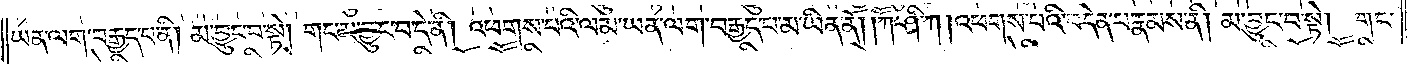ཡན་ལག་བརྒྱད་པ་ནི། མ་བྱུང་བ་སྟེ། གང་མ་བྱུང་བ་དེ་ནི། འཕགས་པའི་ལམ་ཡན་ལག་བརྒྱད་པ་མ་ཡིན་ནོ། །ཀཽ་ཤི་ཀ །འཕགས་པའི་བདེན་པ་རྣམས་ནི། མ་བྱུང་བ་སྟེ། གང་
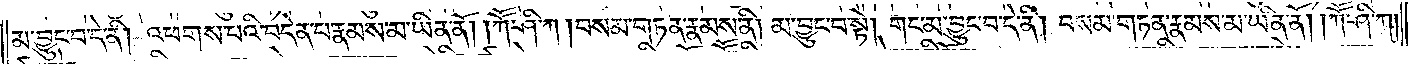མ་བྱུང་བ་དེ་ནི། འཕགས་པའི་བདེན་པ་རྣམས་མ་ཡིན་ནོ། །ཀཽ་ཤི་ཀ །བསམ་གཏན་རྣམས་ནི། མ་བྱུང་བ་སྟེ། གང་མ་བྱུང་བ་དེ་ནི། བསམ་གཏན་རྣམས་མ་ཡིན་ནོ། །ཀཽ་ཤི་ཀ།
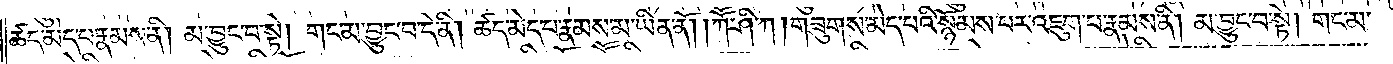ཚད་མེད་པ་རྣམས་ནི། མ་བྱུང་བ་སྟེ། གང་མ་བྱུང་བ་དེ་ནི། ཚད་མེད་པ་རྣམས་མ་ཡིན་ནོ། །ཀཽ་ཤི་ཀ །གཟུགས་མེད་པའི་སྙོམས་པར་འཇུག་པ་རྣམས་ནི། མ་བྱུང་བ་སྟེ། གང་མ་
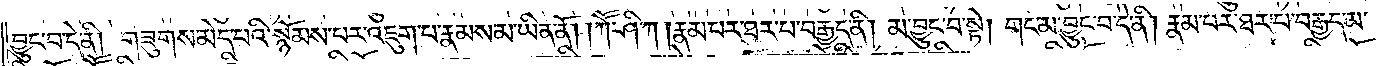བྱུང་བ་དེ་ནི། གཟུགས་མེད་པའི་སྙོམས་པར་འཇུག་པ་རྣམས་མ་ཡིན་ནོ། །ཀཽ་ཤི་ཀ །རྣམ་པར་ཐར་པ་བརྒྱད་ནི། མ་བྱུང་བ་སྟེ། གང་མ་བྱུང་བ་དེ་ནི། རྣམ་པར་ཐར་པ་བརྒྱད་མ་
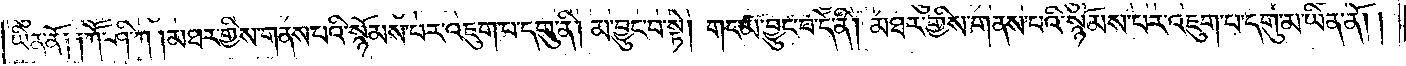ཡིན་ནོ༑ ༑ཀཽ་ཤི་ཀ །མཐར་གྱིས་གནས་པའི་སྙོམས་པར་འཇུག་པ་དགུ་ནི། མ་བྱུང་བ་སྟེ། གང་མ་བྱུང་བ་དེ་ནི། མཐར་གྱིས་གནས་པའི་སྙོམས་པར་འཇུག་པ་དགུ་མ་ཡིན་ནོ༎
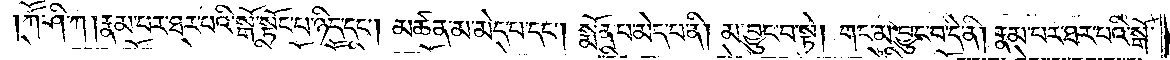ཀཽ་ཤི་ཀ །རྣམ་པར་ཐར་པའི་སྒོ་སྟོང་པ་ཉིད་དང༌། མཚན་མ་མེད་པ་དང༌། སྨོན་པ་མེད་པ་ནི། མ་བྱུང་བ་སྟེ། གང་མ་བྱུང་བ་དེ་ནི། རྣམ་པར་ཐར་པའི་སྒོ་
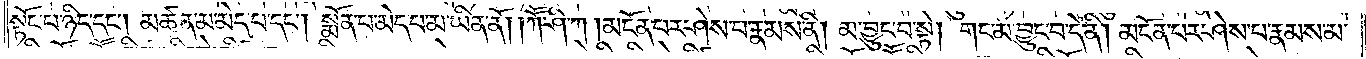སྟོང་པ་ཉིད་དང༌། མཚན་མ་མེད་པ་དང༌། སྨོན་པ་མེད་པ་མ་ཡིན་ནོ། །ཀཽ་ཤི་ཀ །མངོན་པར་ཤེས་པ་རྣམས་ནི། མ་བྱུང་བ་སྟེ། གང་མ་བྱུང་བ་དེ་ནི། མངོན་པར་ཤེས་པ་རྣམས་མ་
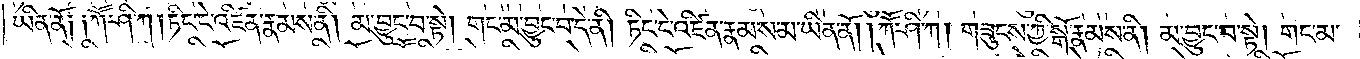ཡིན་ནོ། །ཀཽ་ཤི་ཀ །ཏིང་ངེ་འཛིན་རྣམས་ནི། མ་བྱུང་བ་སྟེ། གང་མ་བྱུང་བ་དེ་ནི། ཏིང་ངེ་འཛིན་རྣམས་མ་ཡིན་ནོ། །ཀཽ་ཤི་ཀ །གཟུངས་ཀྱི་སྒོ་རྣམས་ནི། མ་བྱུང་བ་སྟེ། གང་མ་
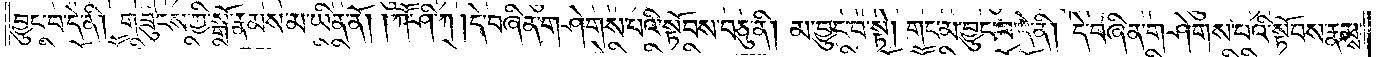བྱུང་བ་དེ་ནི། གཟུངས་ཀྱི་སྒོ་རྣམས་མ་ཡིན་ནོ། །ཀཽ་ཤི་ཀ །དེ་བཞིན་གཤེགས་པའི་སྟོབས་བཅུ་ནི། མ་བྱུང་བ་སྟེ། གང་མ་བྱུང་བ་དེ་ནི། དེ་བཞིན་གཤེགས་པའི་སྟོབས་རྣམས་
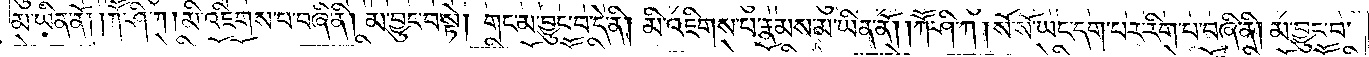མ་ཡིན་ནོ། །ཀཽ་ཤི་ཀ །མི་འཇིགས་པ་བཞི་ནི། མ་བྱུང་བ་སྟེ། །གང་མ་བྱུང་བ་དེ་ནི། མི་འཇིགས་པ་རྣམས་མ་ཡིན་ནོ། །ཀཽ་ཤི་ཀ །སོ་སོ་ཡང་དག་པར་རིག་པ་བཞི་ནི། མ་བྱུང་བ་
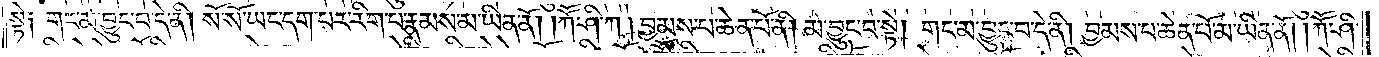སྟེ༑ གང་མ་བྱུང་བ་དེ་ནི། སོ་སོ་ཡང་དག་པར་རིག་པ་རྣམས་མ་ཡིན་ནོ། །ཀཽ་ཤི་ཀ །བྱམས་པ་ཆེན་པོ་ནི། མ་བྱུང་བ་སྟེ། གང་མ་བྱུང་བ་དེ་ནི། བྱམས་པ་ཆེན་པོ་མ་ཡིན་ནོ། །ཀཽ་ཤི་
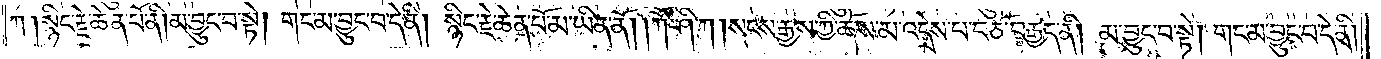ཀ །སྙིང་རྗེ་ཆེན་པོ་ནི། མ་བྱུང་བ་སྟེ། གང་མ་བྱུང་བ་དེ་ནི། སྙིང་རྗེ་ཆེན་པོ་མ་ཡིན་ནོ། །ཀཽ་ཤི་ཀ །སངས་རྒྱས་ཀྱི་ཆོས་མ་འདྲེས་པ་བཅོ་བརྒྱད་ནི། མ་བྱུང་བ་སྟེ། གང་མ་བྱུང་བ་དེ་ནི།
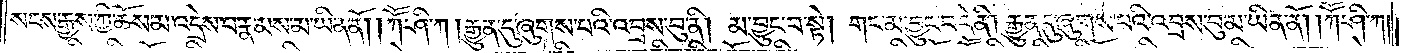སངས་རྒྱས་ཀྱི་ཆོས་མ་འདྲེས་པ་རྣམས་མ་ཡིན་ནོ། །ཀཽ་ཤི་ཀ །རྒྱུན་དུ་ཞུགས་པའི་འབྲས་བུ་ནི། མ་བྱུང་བ་སྟེ། གང་མ་བྱུང་བ་དེ་ནི། རྒྱུན་དུ་ཞུགས་པའི་འབྲས་བུ་མ་ཡིན་ནོ། །ཀཽ་ཤི་ཀ།
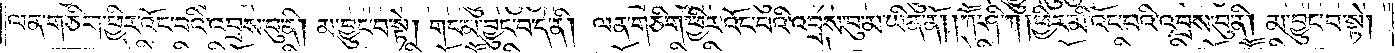ལན་ཅིག་ཕྱིར་འོང་བའི་འབྲས་བུ་ནི། མ་བྱུང་བ་སྟེ། གང་མ་བྱུང་བ་དེ་ནི། ལན་ཅིག་ཕྱིར་འོང་བའི་འབྲས་བུ་མ་ཡིན་ནོ། །ཀཽ་ཤི་ཀ །ཕྱིར་མི་འོང་བའི་འབྲས་བུ་ནི། མ་བྱུང་བ་སྟེ།
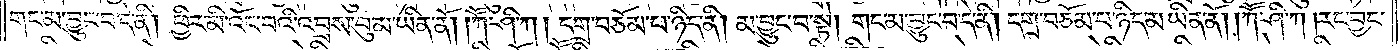གང་མ་བྱུང་བ་དེ་ནི། ཕྱིར་མི་འོང་བའི་འབྲས་བུ་མ་ཡིན་ནོ། །ཀཽ་ཤི་ཀ །དགྲ་བཅོམ་པ་ཉིད་ནི། མ་བྱུང་བ་སྟེ། གང་མ་བྱུང་བ་དེ་ནི། དགྲ་བཅོམ་པ་ཉིད་མ་ཡིན་ནོ། །ཀཽ་ཤི་ཀ །རང་བྱང་
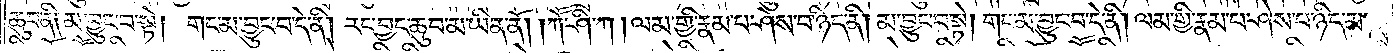ཆུབ་ནི། མ་བྱུང་བ་སྟེ། གང་མ་བྱུང་བ་དེ་ནི་རང་བྱང་ཆུབ་མ་ཡིན་ནོ། །ཀཽ་ཤི་ཀ །ལམ་གྱི་རྣམ་པ་ཤེས་པ་ཉིད་ནི། མ་བྱུང་བ་སྟེ། གང་མ་བྱུང་པ་དེ་ནི། ལམ་ཕྱི་རྣམ་པ་ཤེས་པ་ཉིད་མ་
